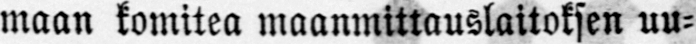maan komitea maanmittauslaitoksen uu-
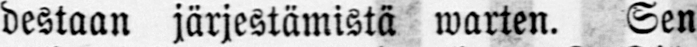destaan järjestämistä warten. Sen
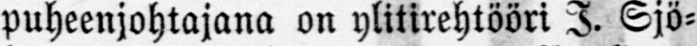puheenjohtajana on ylitirehtööri J. Sjö-
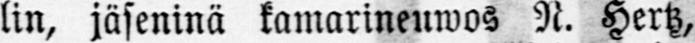lin, jäseninä kamarineuwos N. Hertz,
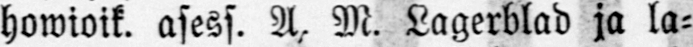howioik. asess. A, M. Lagerblad ja la-
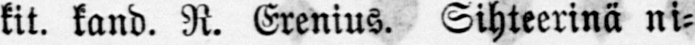kit. kand. R. Erenius. Sihteerinä ni-
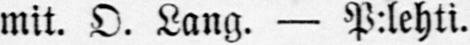mit. O. Lang. — P:lehti.
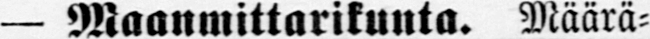— Maanmittarikunta. Määrä-
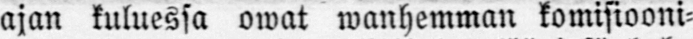ajan kuluessa owat wanhemman komisiooni-
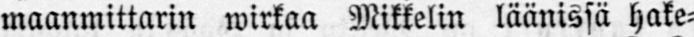maanmittarin wirkaa Mikkelin läänissä hake-
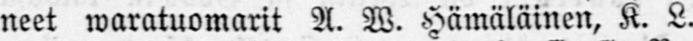neet waratuomarit A. W. Hämäläinen. K. L.
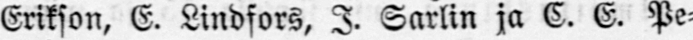Erikson, E. Lindfors, I. Sarlin ja C. E. Pe-
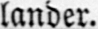lander.
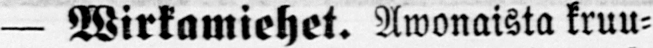— Wirkamiehet. Awonaista kruu-
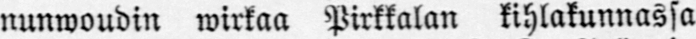nunwoudin wirkaa Pirkkalan kihlakunnassa
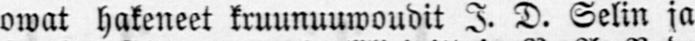owat hakeneet kruunuuwoudit J. D. Selin ja
